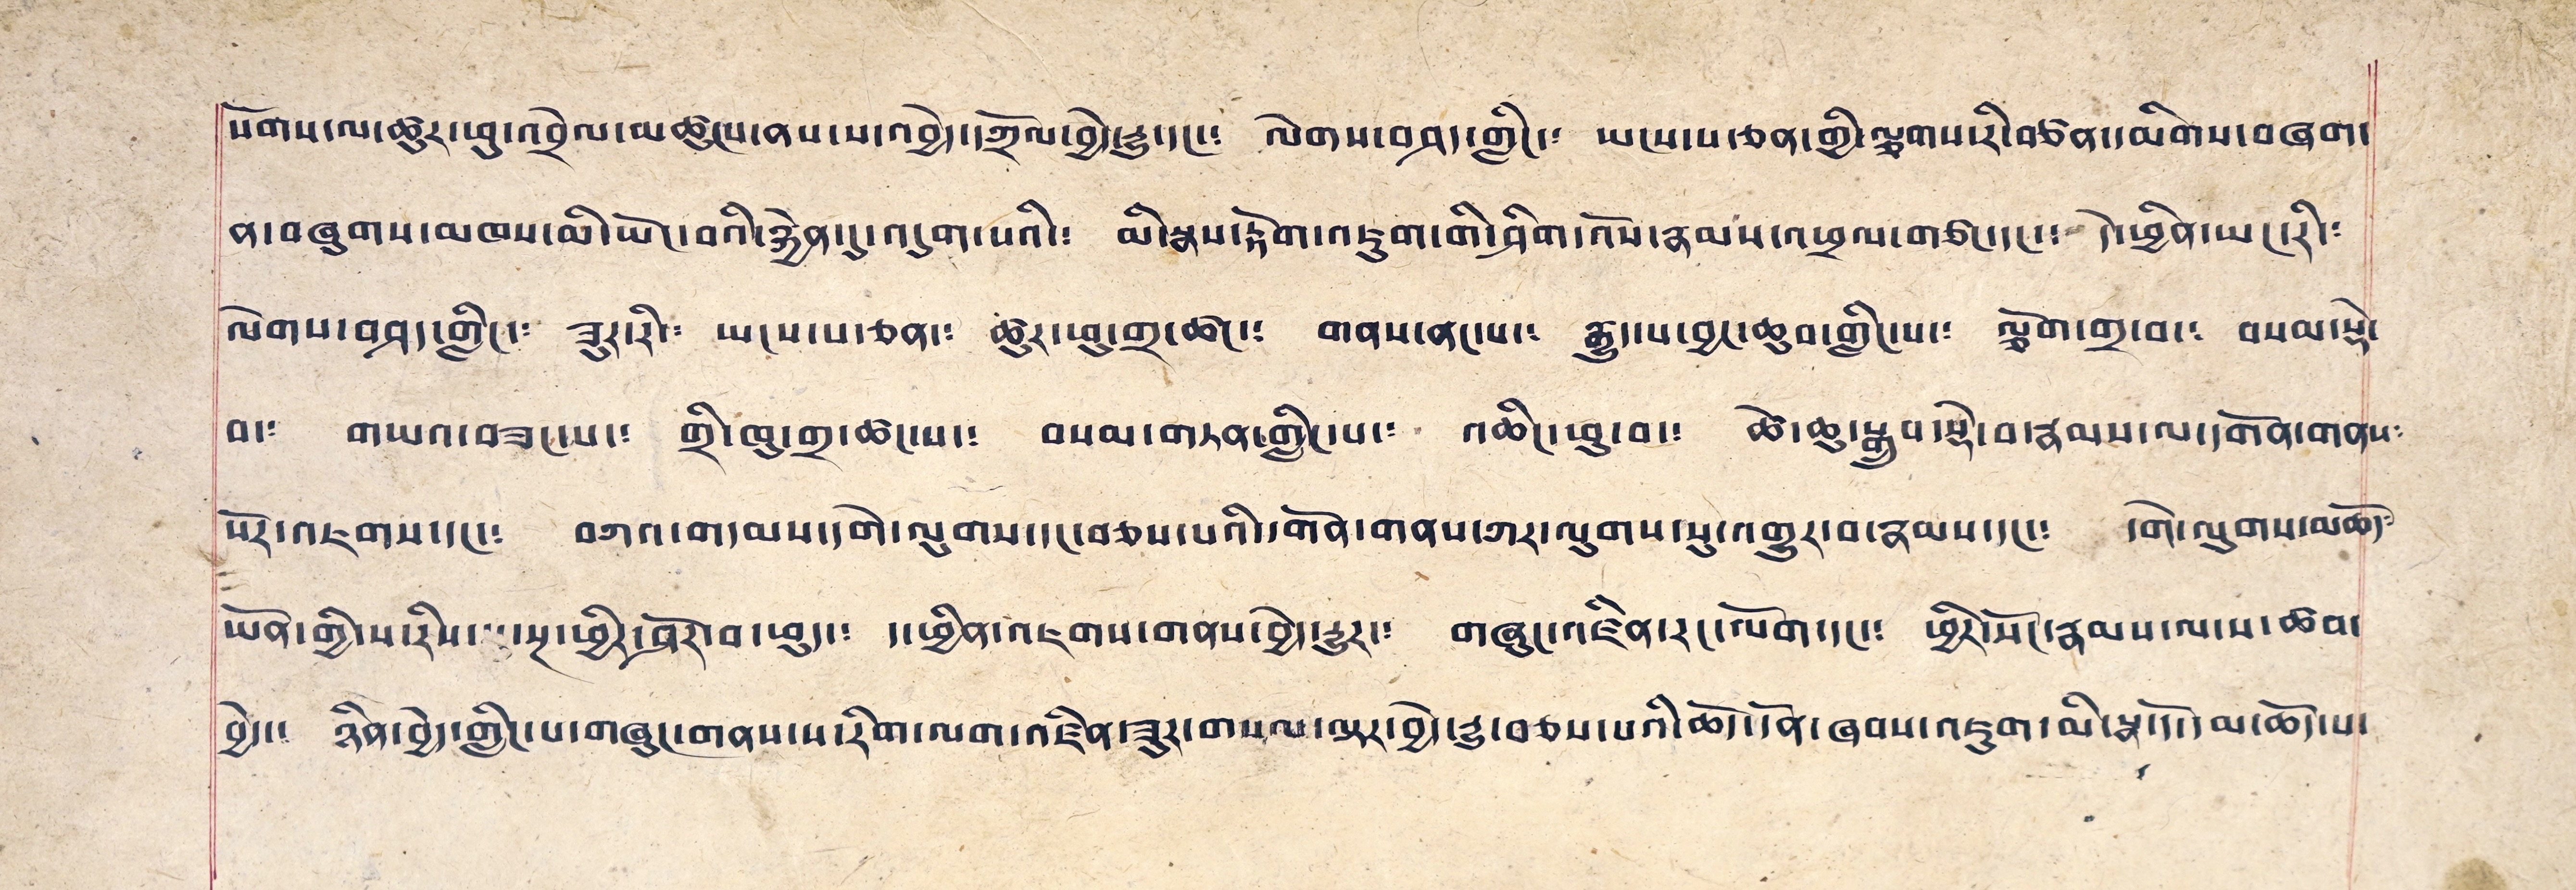སོགས་ལ་ཚུར་ཕུ་འབྲེལ་མཚུངས་ནས་ས་འབྱེད་དཀྲོལ་བྱེད་རྒྱུ་དང་༴ ལེགས་བཤད་གླིང་༴ ཡངས་པ་ཅན་གྱི་ལྕགས་རི་བཙན་དམིགས་བཞག་
ན་བཞུགས་མཁས་མི་ཡོང་བའི་རྐྱེན་དུ་འདུག་པའི་༴ མི་སྣས་རྟོག་འཇུག་གི་ཤིག་འོས་རྣམས་འཕྲལ་གཙང་དང་༴ དེ་ཕྱིན་ཡང་རི༴
ལེགས་བཤད་གླིང་༴ ཟུར་རི་༴ ཡངས་པ་ཅན་༴ ཚུར་ཕུ་གྲ་ཚང་༴ གནས་ནང་པ་༴ རྒྱུད་པ་བྱང་ཆུབ་གླིང་པ་༴ ལྕོག་གྲ་བ་༴ བསམ་སྡེ་
བ་༴ གཡའ་བཟང་པ་༴ གྲི་ཁུ་གྲ་ཚང་པ་༴ བསམ་གཏན་གླིང་པ་༴ འཆིང་ཕུ་བ་༴ ཚེ་ཆུ་སྒྲུབ་སྡེ་བ་རྣམས་ལ་དགོན་གནས༴
པོར་འཇགས་དང་༴ བཀའ་གདམས་དགེ་ལུགས་དང་བཅས་པའི་དགོན་གནས་ཀར་ལུགས་སུ་འགྱུར་བ་རྣམས་དང་༴ དགེ་ལུགས་མཆོད༴
ཡོན་གྱི་ས་རིས་་་་སྔ་ཕྱིར་ཤོར་བ་ཕུད་༴ ད་ཕྱིན་འཇགས་གནས་བྱེས་རྒྱུར་༴ གཞུང་འཛིན་རང་ལོག་དང་༴ ཕྱིར་སོང་རྣམས་ལ་ས་ཚབ་
བྱེད་། ཉིན་བྱེད་གླིང་པ་གཞུང་གནས་པ་རིག་ལག་འཛིན་ཟུར་གསལ་ལྟར་བྱེད་རྒྱུ་བཅས་པའི་ཆོད་དོན་ཞབས་འཇུག་མི་སྣ་དོ་དམ་ཆོད་པ་
